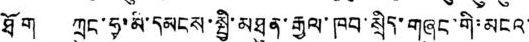ཐོག ཀྲུང་ཧྭ་མི་དམངས་སྤྱི་མཐུན་རྒྱལ་ཁབ་སྲིད་གཞུང་གི་མངའ་
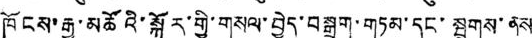ཁོངས་རྒྱ་མཚོའི་སྐོར་གྱི་གསལ་བྱེད་བསྒྲག་གཏམ་དང་སྦྲགས་ནས
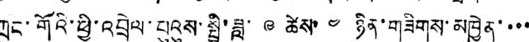ཀྲུང་གོའི་ཕྱི་འབྲེལ་པུའུས་སྤྱི་ཟླ་ ༩ ཚེས་ ༤ ཉིན་གཟིགས་མཁྱེན་་་་
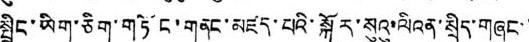སྤྲིང་ཡིག་ཅིག་གཏོང་གནང་མཛད་པའི་སྐོར་སུའུ་ལིའན་སྲིད་གཞུང་་
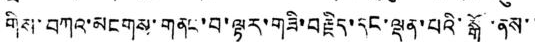གིས་བཀའ་མངགས་གནང་བ་ལྟར་གཟི་བརྗིད་དང་ལྡན་པའི་སྒོ་ནས་་
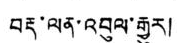བརྡ་ལན་འབུལ་རྒྱུར།
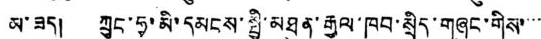མ་ཟད། ཀྲུང་ཧྭ་མི་དམངས་སྤྱི་མཐུན་རྒྱལ་ཁབ་སྲིད་གཞུང་གིས་་་་
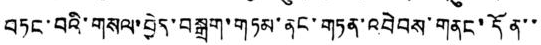བཏང་བའི་གསལ་བྱེད་བསྒྲག་གཏམ་ནང་གཏན་འབེབས་གནང་དོན་་
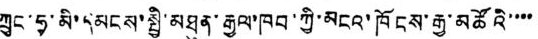ཀྲུང་ཧྭ་མི་དམངས་སྤྱི་མཐུན་རྒྱལ་ཁབ་ཀྱི་མངའ་ཁོངས་རྒྱ་མཚོའི་་་་
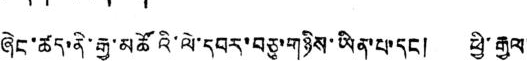ཞེང་ཚད་ནི་རྒྱ་མཚོའི་ལེ་དབར་བཅུ་གཉིས་ཡིན་པ་དང། ཕྱི་རྒྱལ་
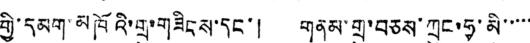གྱི་དམག་མཁོའི་གྲུ་གཟིངས་དང་། གནམ་གྲུ་བཅས་ཀྲུང་ཧྭ་མི་་་་་
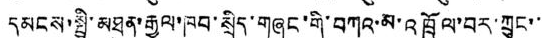དམངས་སྤྱི་མཐུན་རྒྱལ་ཁབ་སྲིད་གཞུང་གི་བཀའ་མ་འཁྲོལ་བར་ཀྲུང་་
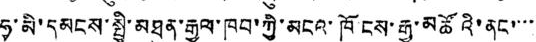ཧྭ་མི་དམངས་སྤྱི་མཐུན་རྒྱལ་ཁབ་ཀྱི་མངའ་ཁོངས་རྒྱ་མཚོའི་ནང་་་་
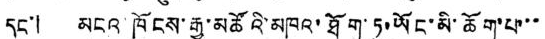དང་། མངའ་ཁོངས་རྒྱ་མཚོའི་མཁའ་ཐོག་ཏུ་ཡོང་མི་ཆོག་པ་་་
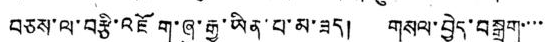བཅས་ལ་བརྩི་འཇོག་ཞུ་རྒྱུ་ཡིན་པ་མ་ཟད། གསལ་བྱེད་བསྒྲག་་་་
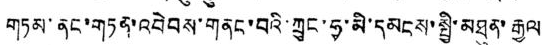གཏམ་ནང་གཏན་འབེབས་གནང་བའི་ཀྲུང་ཧྭ་མི་དམངས་སྤྱི་མཐུན་རྒྱལ
